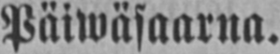Päiwäsaarna.
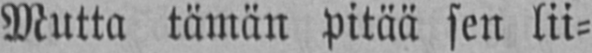Mutta tämän pitää sen lii-
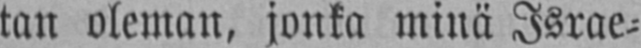tan oleman, jonka minä Israe-
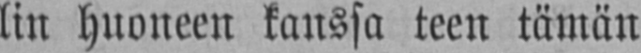lin huoneen kanssa teen tämän
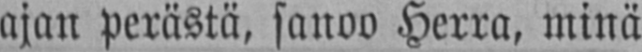ajan perästä, sanoo Herra, minä
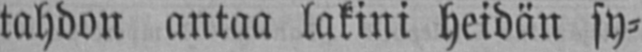tahdon antaa lakini heidän sy-
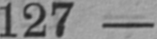127
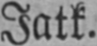Jatk.
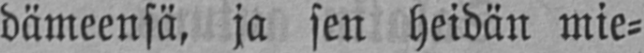dämeensä, ja sen heidän mie-
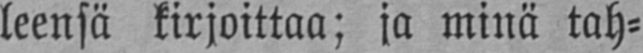leensä kirjoittaa; ja minä tah-
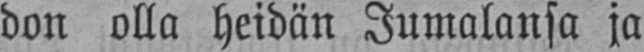don olla heidän Jumalansa ja
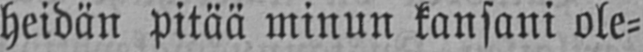heidän pitää minun kansani ole-
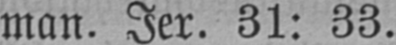man. Jer. 31: 33.
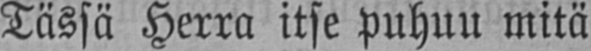Tässä Herra itse puhuu mitä
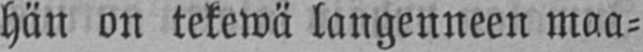hän on tekewä langenneen maa-
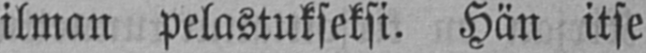ilman pelastukseksi. Hän itse
